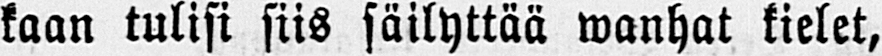kaan tulisi siis säilyttää wanhat kielet,
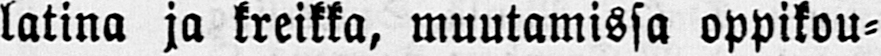latina ja kreikka, muutamissa oppikou-
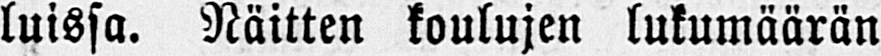luissa. Näitten koulujen lukumäärän
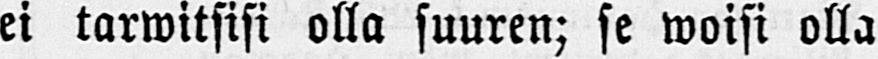ei tarwitsisi olla suuren; se woisi olla
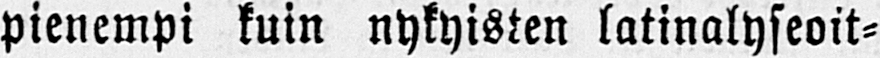pienempi kuin nykyisten latinalyseoit-
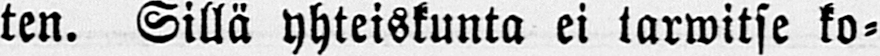ten. Sillä yhteiskunta ei tarwitse ko-
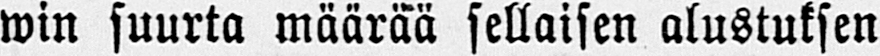win suurta määrää sellaisen alustuksen
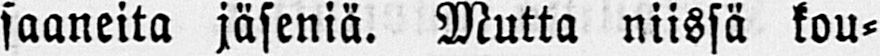saaneita jäseniä. Mutta niissä kou-
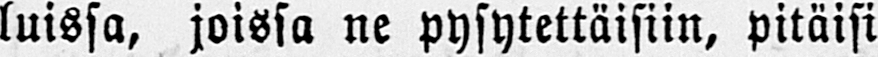luissa, joissa ne pysytettäisiin, pitäisi
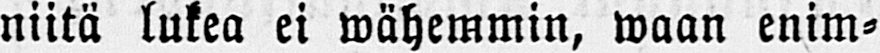niitä lukea ei wähemmin, waan enim-
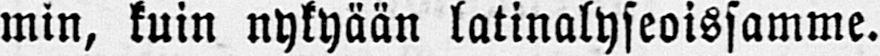min, kuin nykyään latinalyseoissamme.
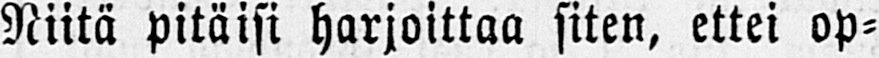Niitä pitäisi harjoittaa siten, ettei op-
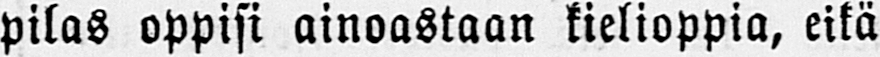pilas oppisi ainoastaan kielioppia, eikä
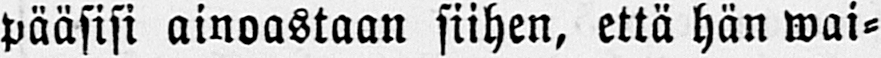pääsisi ainoastaan siihen, että hän wai-
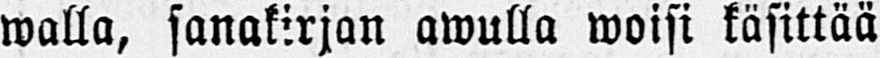walla, sanakirjan awulla woisi käsittää
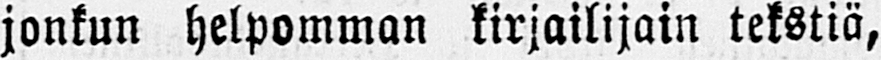jonkun helpomman kirjailijain tekstiä,
